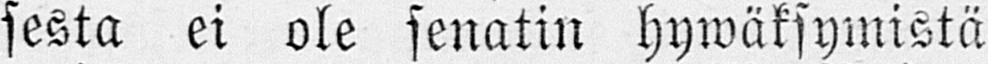sesta ei ole senatin hywäksymistä
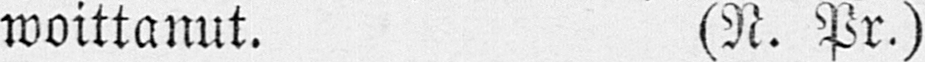woittanut. (N. Pr.)
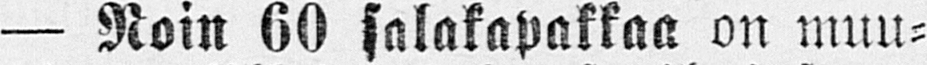— Noin 60 salakapakkaa on muu-
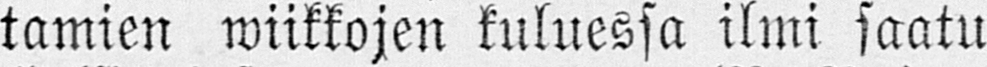tamien wiikkojen kuluessa ilmi saatu
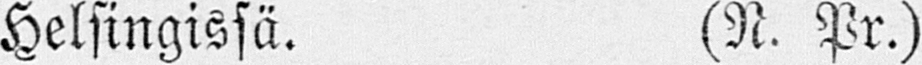Helsingissä. (N. Pr.)
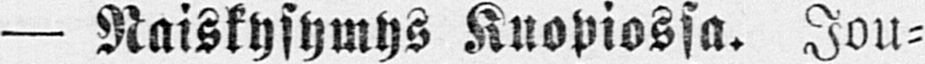— Naiskysymys Kuopiossa. Jou-
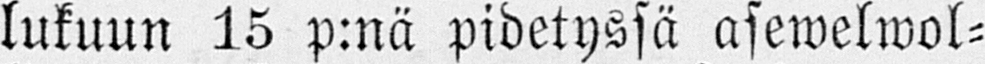lukuun 15 p:nä pidetyssä asewelwol-
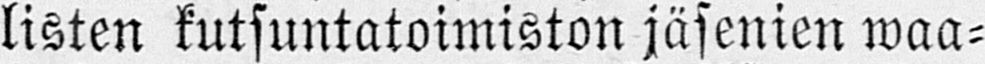listen kutsuntatoimiston jäsenien waa-
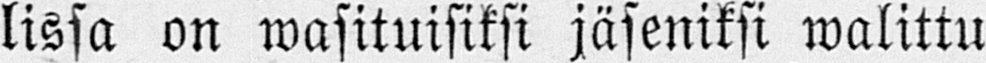lissa on wasituisiksi jäseniksi walittu
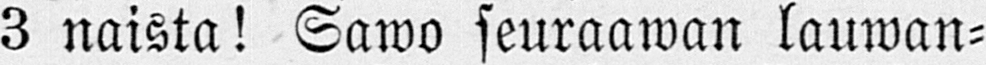3 naista! Sawo seuraawan lauwan-
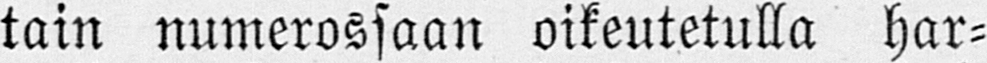tain numerossaan oikeutetulla har-
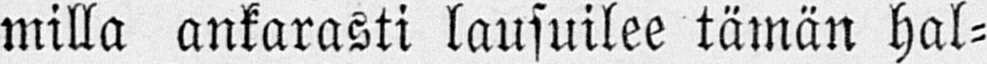milla ankarasti lausuilee tämän hal-
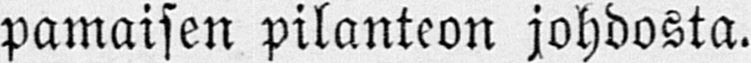pamaisen pilanteon johdosta.
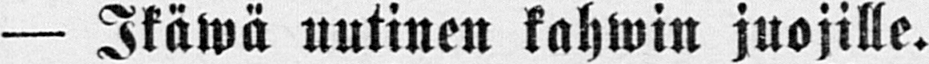— Ikäwä uutinen kahwin juojille.
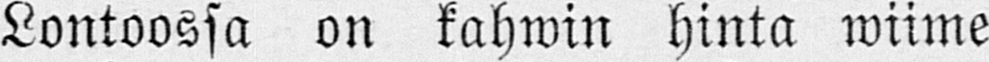Lontoossa on kahwin hinta wiime
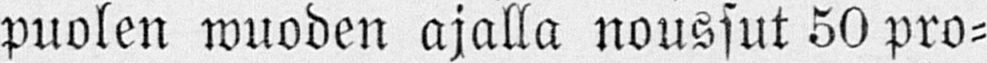puolen wuoden ajalla noussut 50 pro-
